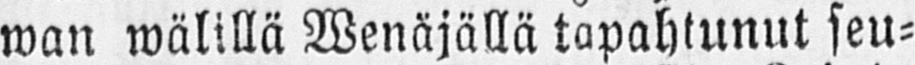wan wälillä Wenäjällä tapahtunut seu-
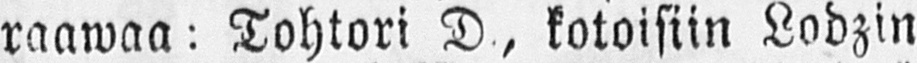raawaa: Tohtori D., kotoisiin Lodzin
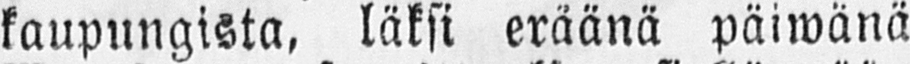kaupungista, läksi eräänä päiwänä
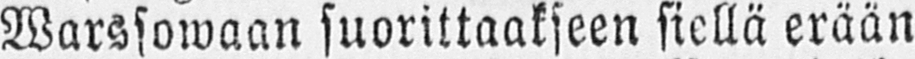Warssowaan suorittaakseen siellä erään
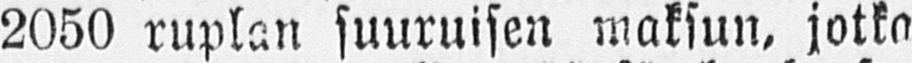2050 ruplan suuruisen maksun, jotka
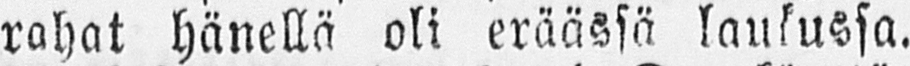rahat hänellä oli eräässä laukussa.
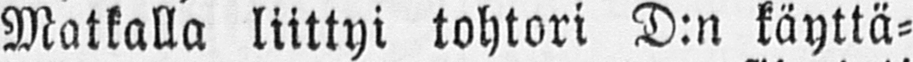Matkalla liittyi tohtori D:n käyttä-
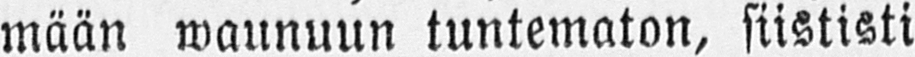mään waunuun tuntematon, siististi
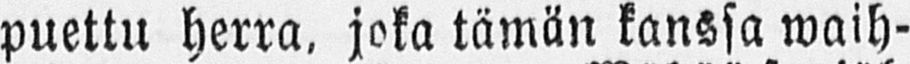puettu herra, joka tämän kanssa waih-
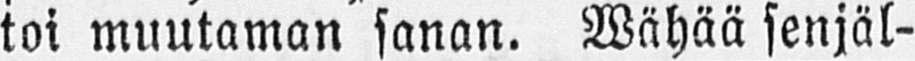toi muutaman sanan. Wähää senjäl-
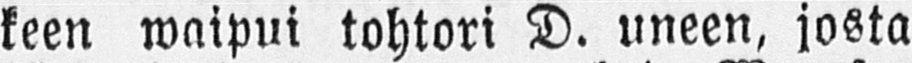keen waipui tohtori D. uneen, josta
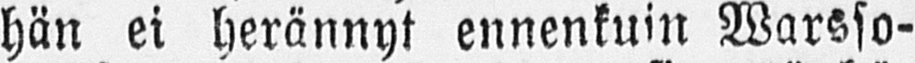hän ei herännyt ennenkuin Warsso-
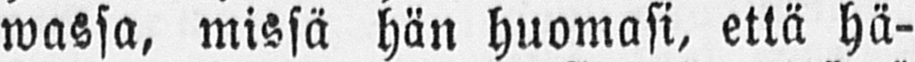wassa, missä hän huomasi, että hä-
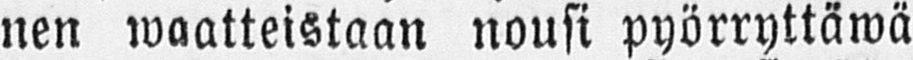nen waatteistaan nousi pyörryttäwä
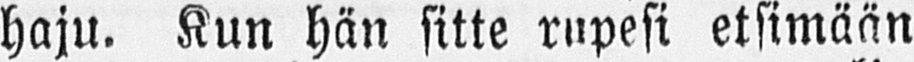haju. Kun hän sitte rupesi etsimään
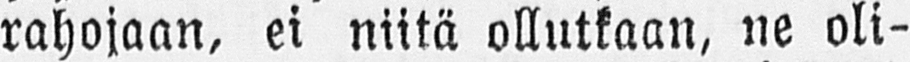rahojaan, ei niitä ollutkaan, ne oli-
